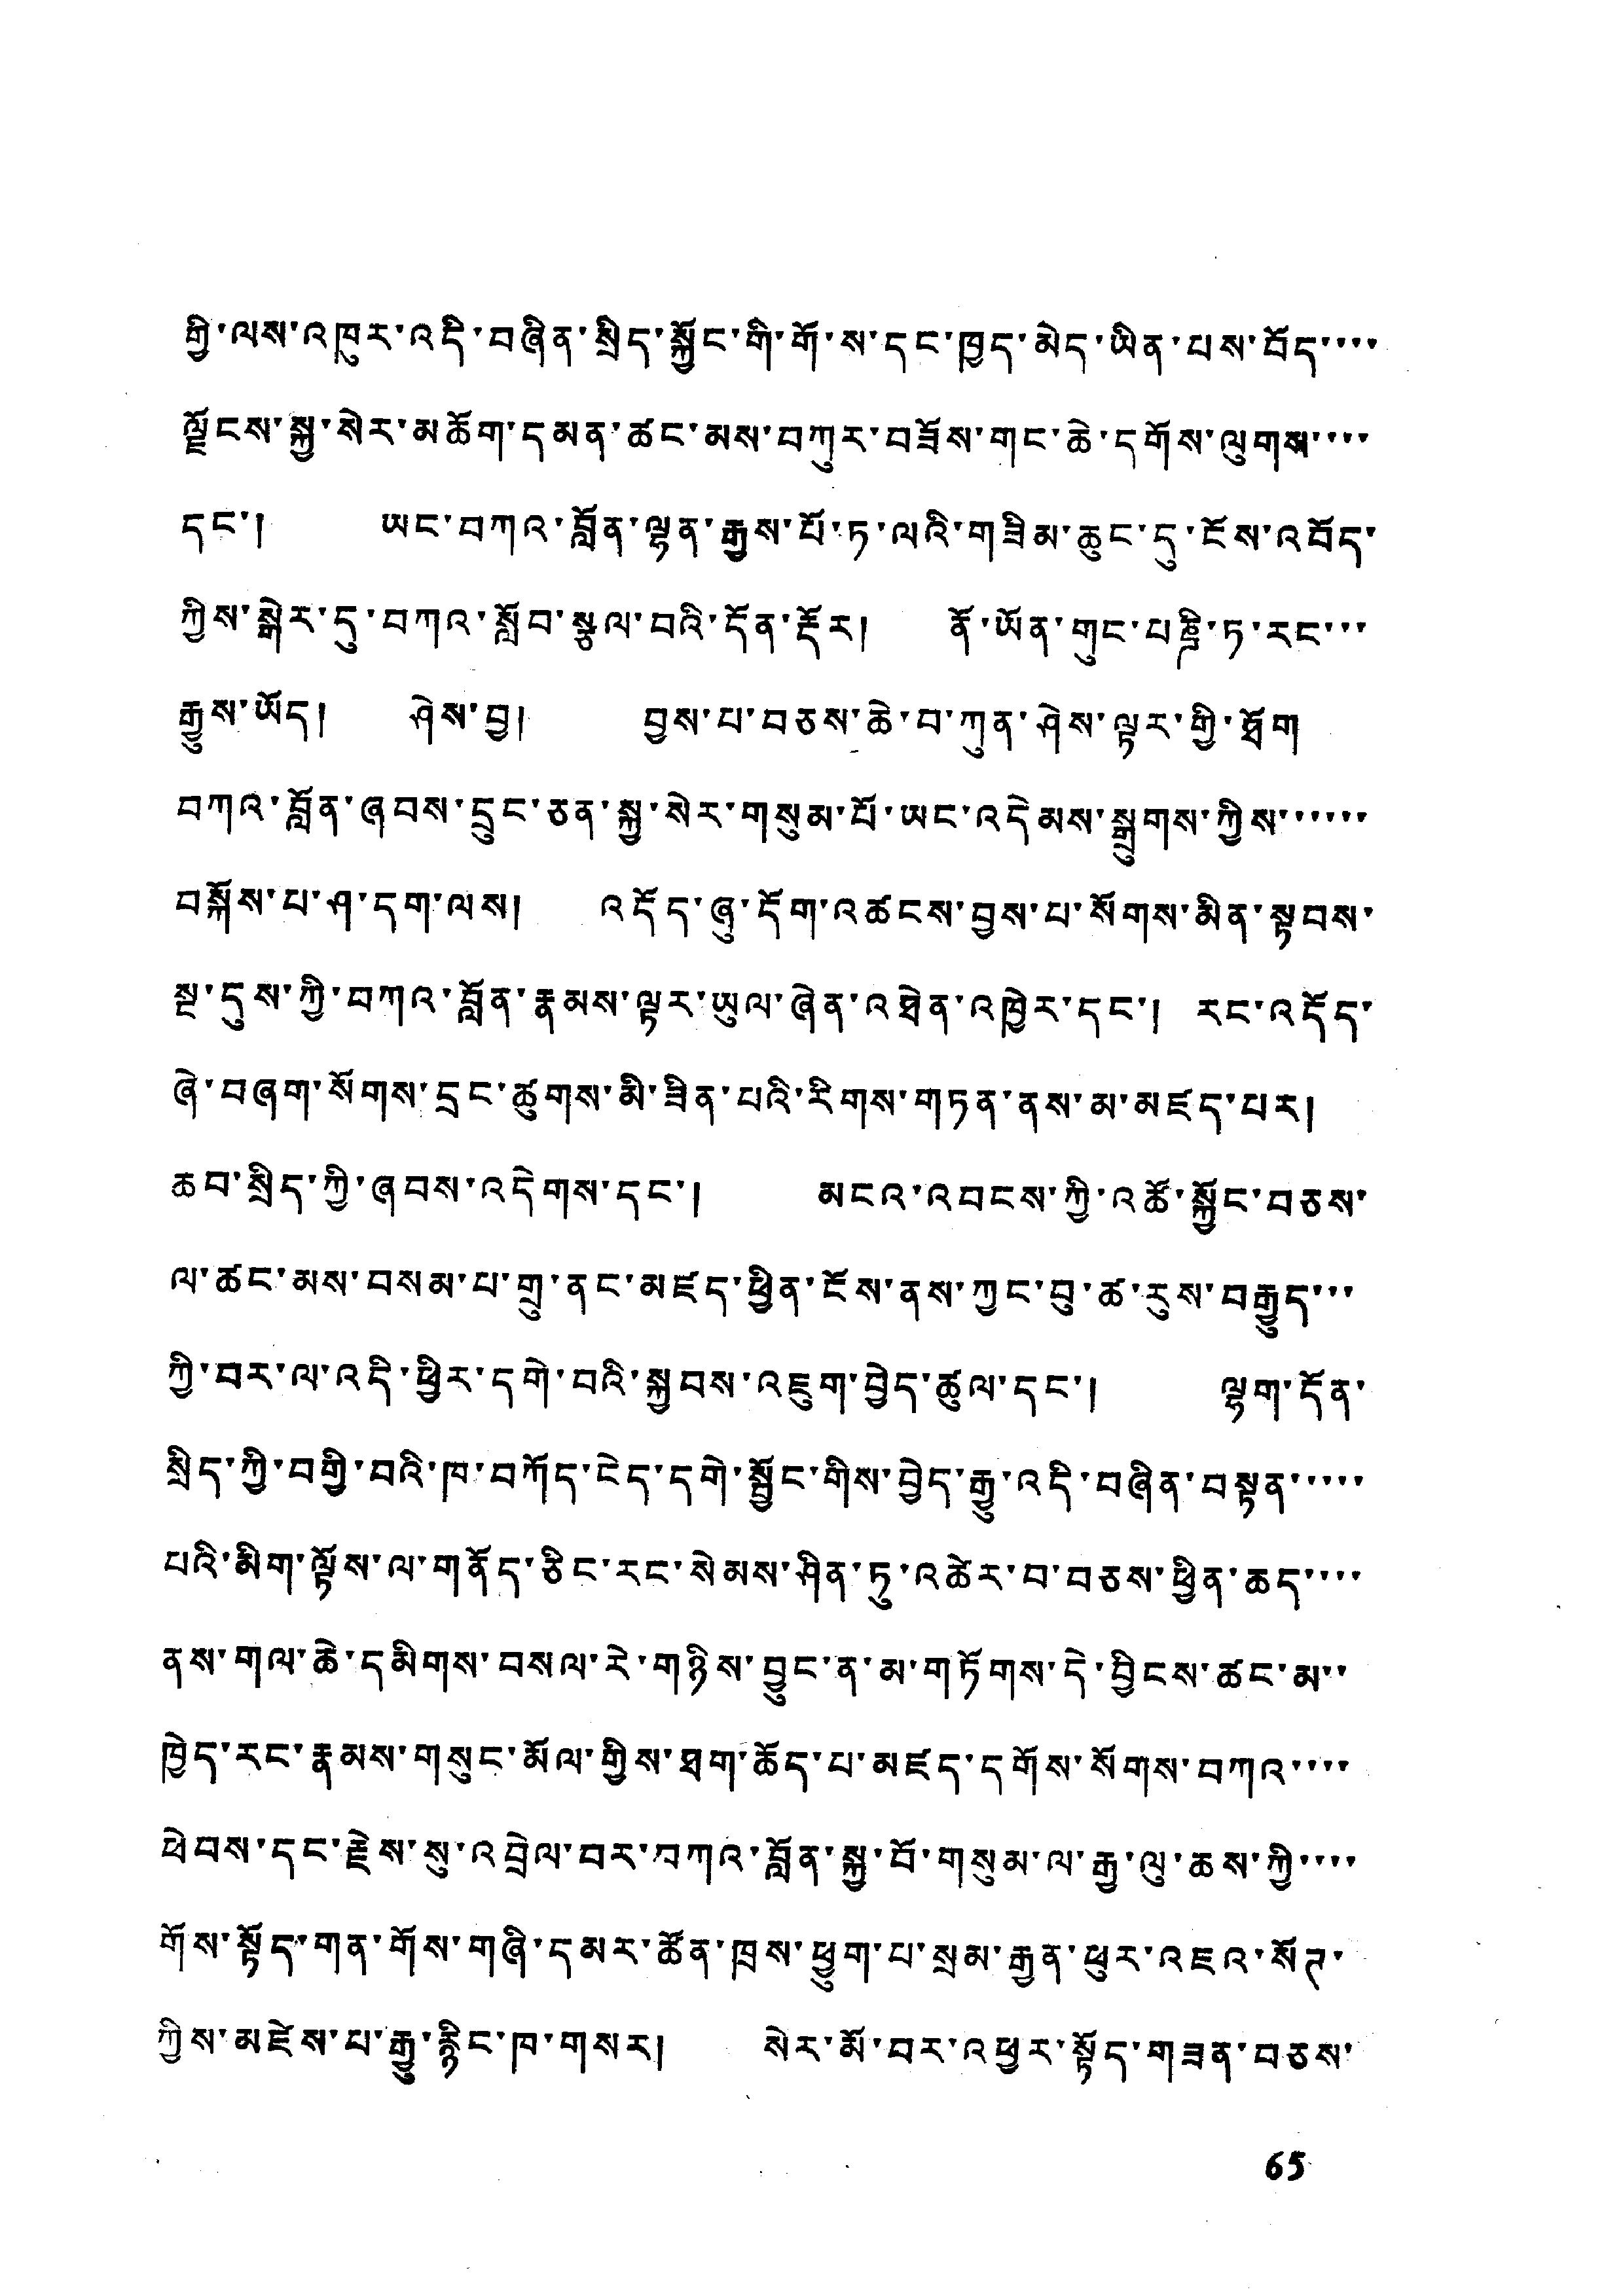གྱི་ལས་འཁུར་འདི་བཞིན་སྲིད་སྐྱོང་གི་གོ་ས་དང་ཁྱད་མེད་ཡིན་པས་བོད་་་་
ལྗོངས་སྐྱ་སེར་མཆོག་དམན་ཚང་མས་བཀུར་བཟོས་གང་ཆེ་དགོས་ལུགས་་་་
དང་། ཡང་བཀའ་བློན་ལྷན་རྒྱས་པོ་ཏ་ལའི་གཟིམས་ཆུང་དུ་ངོས་འབོད་
ཀྱིས་སྒེར་དུ་བཀའ་སློབ་སྩལ་བའི་དོན་རྡོར་།་ནོ་ཡོན་གུང་པཎྜི་ཏ་རང་་་
རྒྱུས་ཡོད། ཤེས་བྱ། བྱ་པ་བཅས་ཆེ་བ་ཀུན་ཤེས་ལྟར་གྱི་ཐོག
བཀའ་བློན་ཞབས་དྲུང་ཅན་སྐྱ་སེར་གསུམ་པོ་ཡང་འདེམས་སྒྲུགས་ཀྱིས་་་་་་
བསྐོས་པ་ཤ་དག་ལས། འདོད་ཞུ་དོག་འཚངས་བྱས་པ་སོགས་མིན་སྟབས་
སྔ་དུས་ཀྱི་བཀའ་བློན་རྣམས་ལྟར་ཡུལ་ཞེན་འཐེན་འཁྱེར་དང་། རང་འདོད་
ཞེ་བཞག་སོགས་དྲང་ཚུགས་མི་ཟིན་པའི་རིགས་གཏན་ནས་མ་མཛད་པར།
ཆབ་སྲིད་ཀྱི་ཞབས་འདེགས་དང་། མངའ་འབངས་ཀྱི་འཚོ་སྐྱོང་བཅས་
ལ་ཚང་མས་བསམ་པ་གྲུ་ནང་མཛད་ཕྱིན་ངོས་ནས་ཀྱང་བུ་ཚ་རུས་བརྒྱུད་་་
ཀྱི་བར་ལ་འདི་ཕྱིར་དགེ་བའི་སྐྱབས་འཇུག་བྱེད་ཚུལ་དང་། ལྷག་དོན་
སྲིད་ཀྱི་བགྱིས་བའི་ཁ་བཀོད་ངེད་དགེ་སྦྱོང་གིས་བྱེད་རྒྱུ་འདི་བཞིན་བསྟན་་་་་
པའི་མིག་ལྟོས་ལ་གནོད་ཅིང་རང་སེམས་ཤིན་ཏུ་འཚེར་བ་བཅས་ཕྱིན་ཆད་་་་
ནས་གལ་ཆེ་དམིགས་བསལ་རེ་གཉིས་བྱུང་ན་མ་གཏོགས་དེ་བྱིངས་ཚང་མ་་
ཁྱེད་རང་རྣམས་གསུང་མོལ་གྱིས་ཐག་ཆོད་པ་མཛད་དགོས་སོགས་བཀའ་་་་
ཕེབས་དང་རྗེས་སུ་འབྲེལ་བར་བཀའ་བློན་སྐྱ་བོ་གསུམ་ལ་རྒྱ་ལུ་ཆས་ཀྱི་་་་
གོས་སྟོད་གན་གོས་གཞི་དམར་ཚོན་ཁྲས་ཕྱུག་པ་སྲམ་རྒྱན་ཕུར་འཇའ་སོཊ་
ཀྱིས་མཛེས་པ་རྒྱུ་རྙིང་ཁ་གསར། སེར་མོ་བར་འཕྱར་སྟོད་གཟན་བཅས་
65
